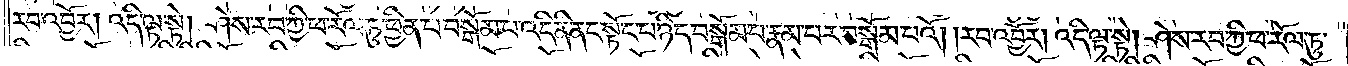རབ་འབྱོར། འདི་ལྟ་སྟེ། ཤེས་རབ་ཀྱི་ཕ་རོལ་ཏུ་ཕྱིན་པ་བསྒོམ་པ་འདི་ནི་ནང་སྟོང་པ་ཉིད་བསྒོམ་པ་རྣམ་པར་བསྒོམ་པའོ། །རབ་འབྱོར། འདི་ལྟ་སྟེ། ཤེས་རབ་ཀྱི་ཕ་རོལ་ཏུ་
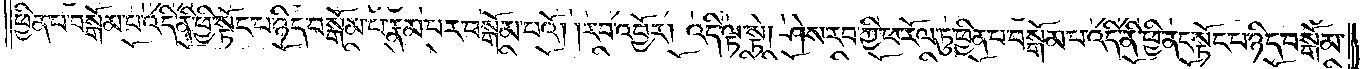ཕྱིན་པ་བསྒོམ་པ་འདི་ནི་ཕྱི་སྟོང་པ་ཉིད་བསྒོམ་པ་རྣམ་པར་བསྒོམ་པའོ། །རབ་འབྱོར། འདི་ལྟ་སྟེ། ཤེས་རབ་ཀྱི་ཕ་རོལ་ཏུ་ཕྱིན་པ་བསྒོམ་པ་འདི་ནི་ཕྱི་ནང་སྟོང་པ་ཉིད་བསྒོམ་
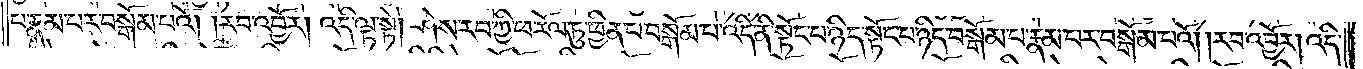པ་རྣམ་པར་བསྒོམ་པའོ། །རབ་འབྱོར། འདི་ལྟ་སྟེ། ཤེས་རབ་ཀྱི་ཕ་རོལ་ཏུ་ཕྱིན་པ་བསྒོམ་པ་འདི་ནི་སྟོང་པ་ཉིད་སྟོང་པ་ཉིད་བསྒོམ་པ་རྣམ་པར་བསྒོམ་པའོ། །རབ་འབྱོར། འདི་
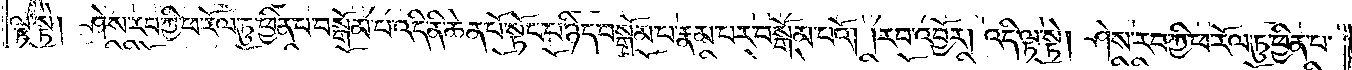ལྟ་སྟེ། ཤེས་རབ་ཀྱི་ཕ་རོལ་ཏུ་ཕྱིན་པ་བསྒོམ་པ་འདི་ནི་ཆེན་པོ་སྟོང་པ་ཉིད་བསྒོམ་པ་རྣམ་པར་བསྒོམ་པའོ། །རབ་འབྱོར། འདི་ལྟ་སྟེ། ཤེས་རབ་ཀྱི་ཕ་རོལ་ཏུ་ཕྱིན་པ་
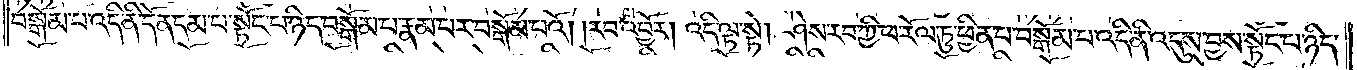བསྒོམ་པ་འདི་ནི་དོན་དམ་པ་སྟོང་པ་ཉིད་བསྒོམ་པ་རྣམ་པར་བསྒོམ་པའོ། །རབ་འབྱོར། འདི་ལྟ་སྟེ། ཤེས་རབ་ཀྱི་ཕ་རོལ་ཏུ་ཕྱིན་པ་བསྒོམ་པ་འདི་ནི་འདུས་བྱས་སྟོང་པ་ཉིད་
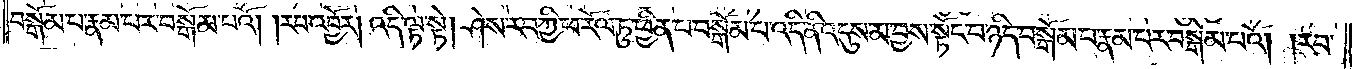བསྒོམ་པ་རྣམ་པར་བསྒོམ་པའོ། །རབ་འབྱོར། འདི་ལྟ་སྟེ། ཤེས་རབ་ཀྱི་ཕ་རོལ་ཏུ་ཕྱིན་པ་བསྒོམ་པ་འདི་ནི་འདུས་མ་བྱས་སྟོང་པ་ཉིད་བསྒོམ་པ་རྣམ་པར་བསྒོམ་པའོ། །རབ་
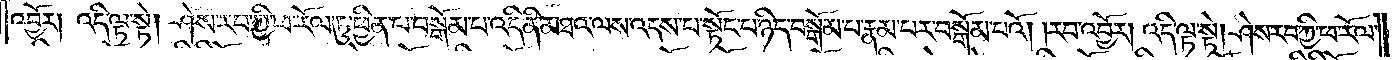འབྱོར། འདི་ལྟ་སྟེ། ཤེས་རབ་ཀྱི་ཕ་རོལ་ཏུ་ཕྱིན་པ་བསྒོམ་པ་འདི་ནི་མཐའ་ལས་འདས་པ་སྟོང་པ་ཉིད་བསྒོམ་པ་རྣམ་པར་བསྒོམ་པའོ། །རབ་འབྱོར། འདི་ལྟ་སྟེ། ཤེས་རབ་ཀྱི་ཕ་རོལ་
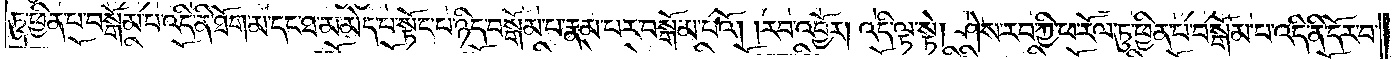ཏུ་ཕྱིན་པ་བསྒོམ་པ་འདི་ནི་ཐོག་མ་དང་ཐ་མ་མེད་པ་སྟོང་པ་ཉིད་བསྒོམ་པ་རྣམ་པར་བསྒོམ་པའོ། །རབ་འབྱོར། འདི་ལྟ་སྟེ། ཤེས་རབ་ཀྱི་ཕ་རོལ་ཏུ་ཕྱིན་པ་བསྒོམ་པ་འདི་ནི་དོར་བ་
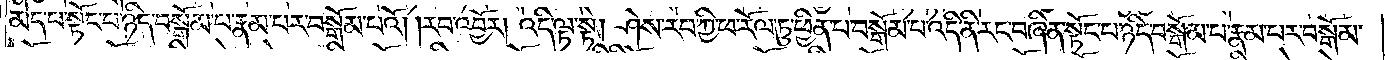མེད་པ་སྟོང་པ་ཉིད་བསྒོམ་པ་རྣམ་པར་བསྒོམ་པའོ། །རབ་འབྱོར། འདི་ལྟ་སྟེ། ཤེས་རབ་ཀྱི་ཕ་རོལ་ཏུ་ཕྱིན་པ་བསྒོམ་པ་འདི་ནི་རང་བཞིན་སྟོང་པ་ཉིད་བསྒོམ་པ་རྣམ་པར་བསྒོམ་
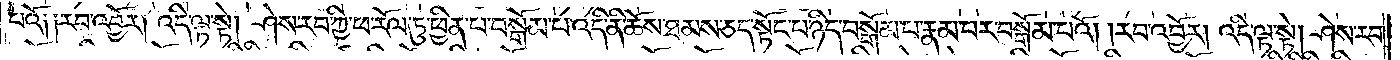པའོ། །རབ་འབྱོར། འདི་ལྟ་སྟེ། ཤེས་རབ་ཀྱི་ཕ་རོལ་ཏུ་ཕྱིན་པ་བསྒོམ་པ་འདི་ནི་ཆོས་ཐམས་ཅད་སྟོང་པ་ཉིད་བསྒོམ་པ་རྣམ་པར་བསྒོམ་པའོ། །རབ་འབྱོར། འདི་ལྟ་སྟེ། ཤེས་རབ་ཀྱི་
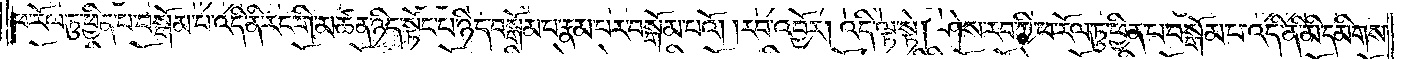ཕ་རོལ་ཏུ་ཕྱིན་པ་བསྒོམ་པ་འདི་ནི་རང་གི་མཚན་ཉིད་སྟོང་པ་ཉིད་བསྒོམ་པ་རྣམ་པར་བསྒོམ་པའོ། །རབ་འབྱོར། འདི་ལྟ་སྟེ། ཤེས་རབ་ཀྱི་ཕ་རོལ་ཏུ་ཕྱིན་པ་བསྒོམ་པ་འདི་ནི་མི་དམིགས་
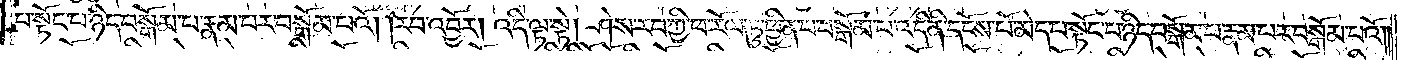པ་སྟོང་པ་ཉིད་བསྒོམ་པ་རྣམ་པར་བསྒོམ་པའོ། །རབ་འབྱོར། འདི་ལྟ་སྟེ། ཤེས་རབ་ཀྱི་ཕ་རོལ་ཏུ་ཕྱིན་པ་བསྒོམ་པ་འདི་ནི་དངོས་པོ་མེད་པ་སྟོང་པ་ཉིད་བསྒོམ་པ་རྣམ་པར་བསྒོམ་པའོ། །
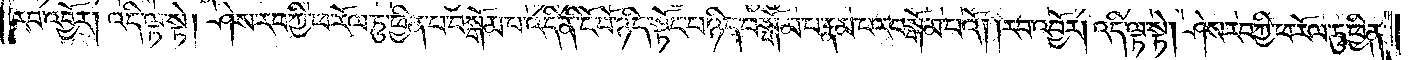རབ་འབྱོར། འདི་ལྟ་སྟེ། ཤེས་རབ་ཀྱི་ཕ་རོལ་ཏུ་ཕྱིན་པ་བསྒོམ་པ་འདི་ནི་ངོ་བོ་ཉིད་སྟོང་པ་ཉིད་བསྒོམ་པ་རྣམ་པར་བསྒོམ་པའོ། །རབ་འབྱོར། འདི་ལྟ་སྟེ། ཤེས་རབ་ཀྱི་ཕ་རོལ་ཏུ་ཕྱིན་
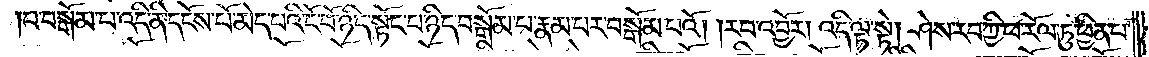པ་བསྒོམ་པ་འདི་ནི་དངོས་པོ་མེད་པའི་ངོ་བོ་ཉིད་སྟོང་པ་ཉིད་བསྒོམ་པ་རྣམ་པར་བསྒོམ་པའོ། །རབ་འབྱོར། འདི་ལྟ་སྟེ། ཤེས་རབ་ཀྱི་ཕ་རོལ་ཏུ་ཕྱིན་པ་
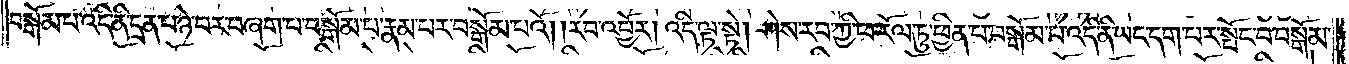བསྒོམ་པ་འདི་ནི་དྲན་པ་ཉེ་བར་བཞག་པ་བསྒོམ་པ་རྣམ་པར་བསྒོམ་པའོ། །རབ་འབྱོར། འདི་ལྟ་སྟེ། ཤེས་རབ་ཀྱི་ཕ་རོལ་ཏུ་ཕྱིན་པ་བསྒོམ་པ་འདི་ནི་ཡང་དག་པར་སྤོང་བ་བསྒོམ་
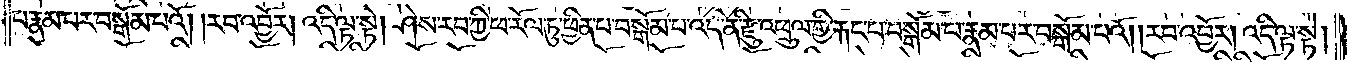པ་རྣམ་པར་བསྒོམ་པའོ། །རབ་འབྱོར། འདི་ལྟ་སྟེ། ཤེས་རབ་ཀྱི་ཕ་རོལ་ཏུ་ཕྱིན་པ་བསྒོམ་པ་འདི་ནི་རྫུ་འཕྲུལ་གྱི་རྐང་པ་བསྒོམ་པ་རྣམ་པར་བསྒོམ་པའོ། །རབ་འབྱོར། འདི་ལྟ་སྟེ།
